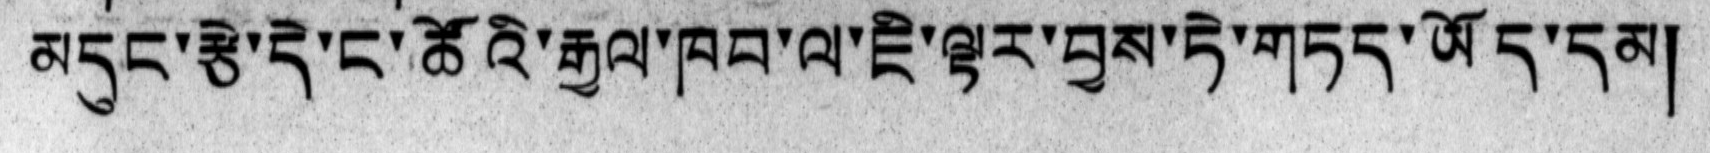མདུང་རྩེ་དེ་ང་ཚོའི་རྒྱལ་ཁབ་ལ་ཇི་ལྟར་བྱས་ཏེ་གཏད་ཡོད་དམ།
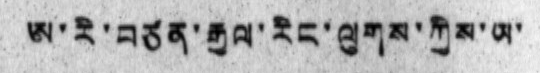ཨ་རི་བཙན་རྒྱལ་རིང་ལུགས་ཀྱིས་ཡ་
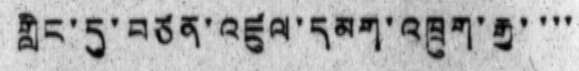གླིང་དུ་བཙན་འཛུལ་དམག་འཁྲུག་རྒྱ་ ་་་
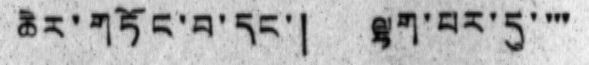ཆེར་གཏོང་བ་དང་། ལྷག་པར་དུ་ ་་་
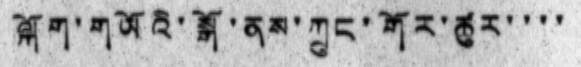ལྐོག་གཡོའི་སྒོ་ནས་ཀྲུང་གོར་ཚུར་་་་
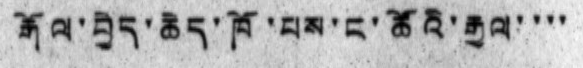རྒོལ་བྱེད་ཆེད་ཁོ་པས་ང་ཚོའི་རྒྱལ་་་་
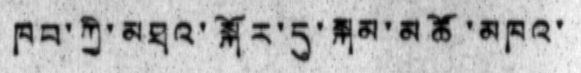ཁབ་ཀྱི་མཐའ་སྐོར་དུ་སྐམ་མཚོ་མཁའ་
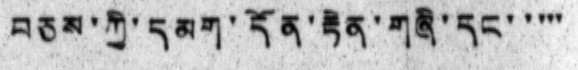བཅས་ཀྱི་དམག་དོན་རྟེན་གཞི་དང་ ་་་་
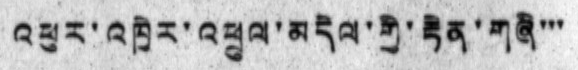འཕུར་འཁྱེར་འཕྲུལ་མདེལ་གྱི་རྟེན་གཞི་་་
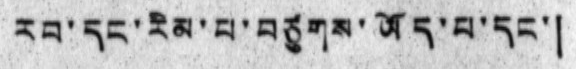རབ་དང་རིམ་པ་བཙུགས་ཡོད་པ་དང་།
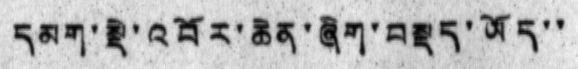དམག་སྡེ་འབོར་ཆེན་ཞིག་བསྡད་ཡོད་་
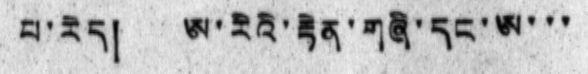པ་རེད། ཨ་རིའི་རྟེན་གཞི་དང་ཨ་་་
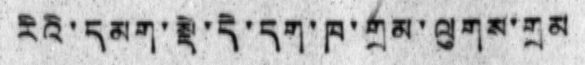རིའི་དམག་སྡེ་དེ་དག་ཁ་གྲམ་ལུགས་གྲམ
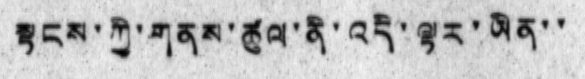སྟངས་ཀྱི་གནས་ཚུལ་ནི་འདི་ལྟར་ཡིན་་
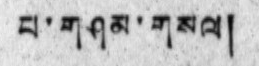པ་གཤན་གསལ།
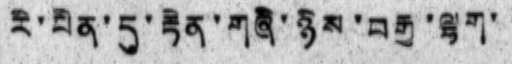རི་པིན་དུ་རྟེན་གཞི་ཉིས་བརྒྱ་ལྷག་
